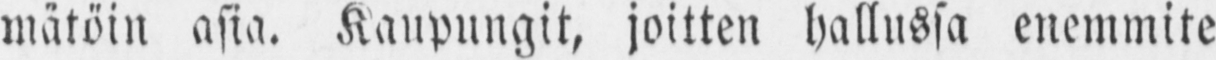mätöin asia. Kaupungit, joitten hallussa enemmite
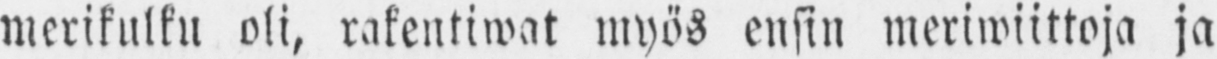merikulku oli, rakentiwat myös ensin meriwiittoja ja
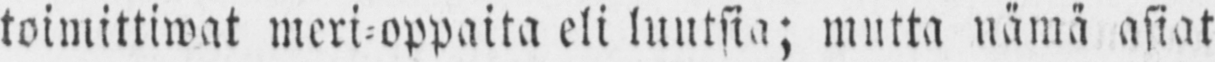toimittiwat meri-oppaita eli luutsia; mutta nämä asiat
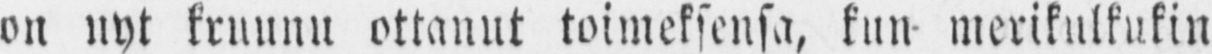on nyt kruunu ottanut toimeksensa, kun merikulkukin
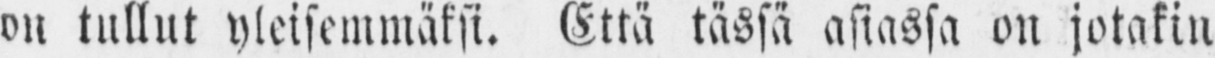on tullut yleisemmäksi. Että tässä asiassa on jotakin
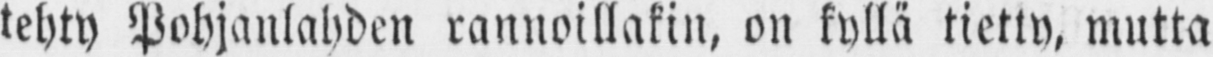tehty Pohjanlahden rannoillakin, on kyllä tietty, mutta
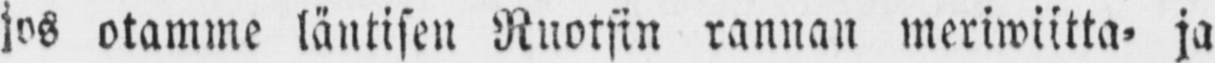jos otamme läntisen Ruotsin rannan meriwiitta- ja
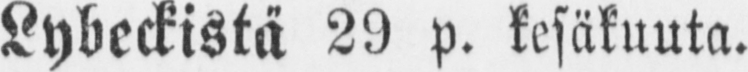Lybeckistä 29 p. kesäkuuta.
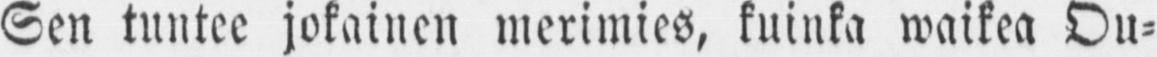Sen tuntee jokainen merimies, kuinka waikea Ou-
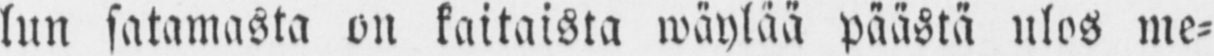lun satamasta on kaitaista wäylää päästä ulos me-
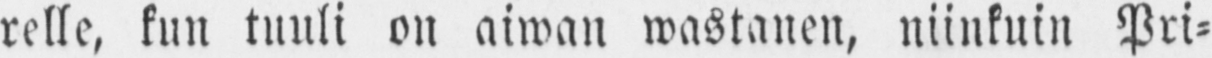relle, kun tuuli on aiwan wastanen, niinkuin Pri-
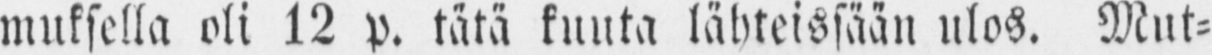muksella oli 12 p. tätä kuuta lähteissään ulos. Mut-
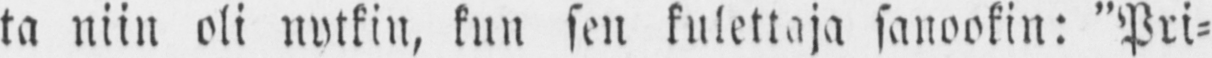ta niin oli nytkin, kun sen kulettaja sanookin: "Pri-
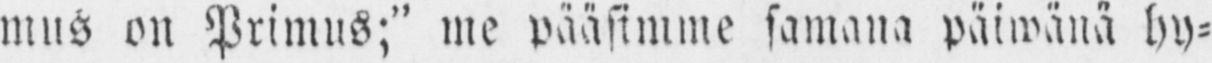mus on Primus;" me pääsimme samana päiwänä hy-
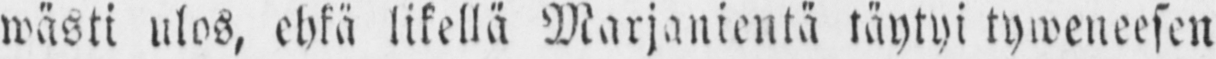wästi ulos, ehkä likellä Marjanientä täytyi tyweneesen
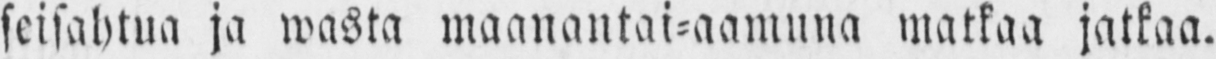seisahtua ja wasta maanantai-aamuna matkaa jatkaa.
